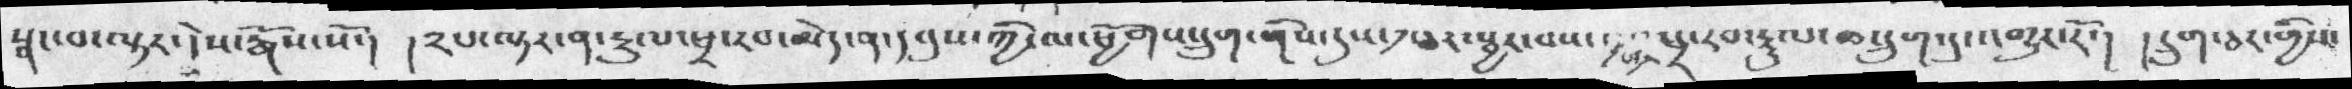སྣང་པ་ལྟར་དེས་རྒོས་སོ་།  །༢པ་ལྟར་ན་རྡུལ་ཕྲ་རབ་མེད་ན་དབུས་ཀྱི་ལ་ཕྱོགས་དྲུག་གིས་དུས་༡་ཅར་སྦྱར་བས་ཕྲ་རབ་རྡུལ་ཆ་དྲུག་དུ་འགྱུར་རོ་།  །དྲུག་ཅར་གྱིས་
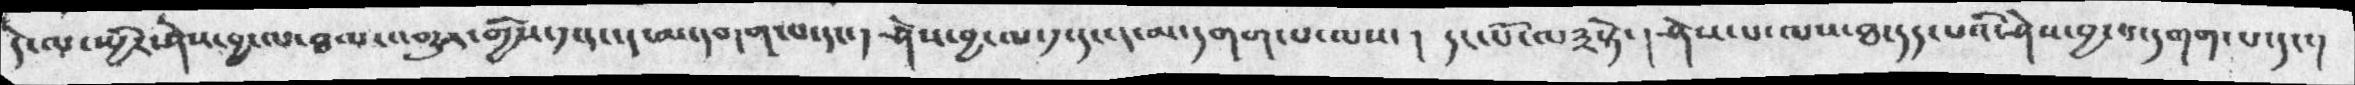དེ་ལ་སྤྱིར་ཤེས་བྱ་ལ་ཐལ་འགྱུར་གྱིས་༡་དང་དུ་མ་དགག་པ་དང་།  ཤེས་བྱ་ལ་༡་དང་དུ་མ་དགག་པ་ལས་།  དང་པོ་ལ༣སྟེ་། ཤེས་པ་ལས་ཐ་དད་པའི་ཤེས་བྱ་བ་དགག་པ་དང་།
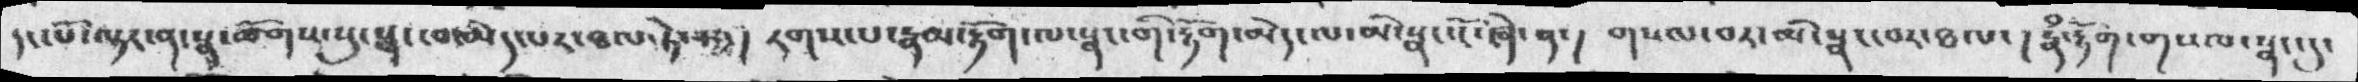དང་པོ་ལྟར་ན་སྣ་ཚོགས་སུ་སྣང་བ་མེད་པར་ཐལ་ཏེ་།     རགས་པ་རྣམ་རྟོག་ལ་སྣང་གི་རྟོག་མེད་ལ་མི་སྣང་ངོ་ཞེ་ན་།   གསལ་བར་མི་སྣང་བར་ཐལ་།  རྣཾ་རྟོག་གསལ་སྣང་དུ་
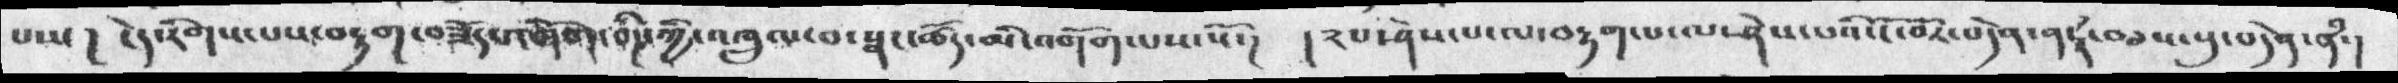པས་།  ངེད་རིགས་པས་བརྟག་བཟོད་པ་འགོག་བདེན་ཀྱི་འཁྲུལ་བ་སྣང་ཚོད་མི་འགོག་པས་སོ་  །༢པ་ཤེས་པ་ལ་བརྟག་པ་ལ་ཤེས་པའི་ངོ་བོར་བདེན་ན་རྣཾ་བཅས་སུ་བདེན་ནཾ་།
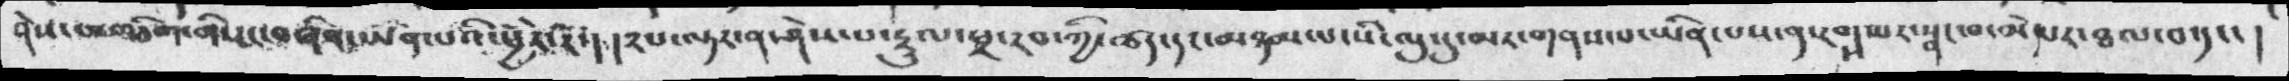ཤེས་པ་གཅིག་གི་ར་བཞིན་ཡིན་པའི་ཕྱིར་རོ་།   །༢པ་ལྟར་ན་ཤེས་པ་རྡུལ་ཕྲ་རབ་ཀྱི་ཚད་དང་མཉམ་པ་སུ་ལུ་དུ་མར་གནས་པ་ཡིན་པས་ན་རག་པར་སྣང་བ་མེད་པར་ཐལ་བ་དང་།
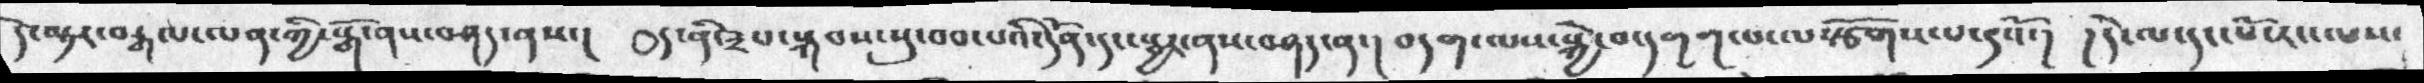དེ་ལྟར་བརྒལ་ལན་གྱི་སྒོ་ནས་བཤད་ནས་།   ༠ད་ནི་༣པ་སྐབས་སུ་བབ་པའི་དོན་དང་སྦྱར་ནས་བཤད་ན་།  བདག་ལས་སྐྱེས་སྐྱེ་བ་དགག་པ་ལསྩོགས་པའ་༩འོ་།  །དེ་ལ་དང་པོ་ར་ལས་
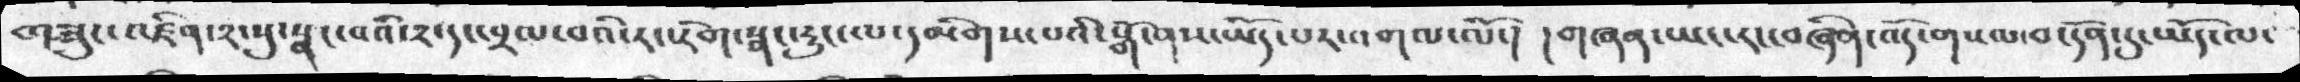གཟུངས་འཛིན་༢་སུ་སྣང་བའི་༢་དང་བྲལ་བའི་རང་རིག་སྣང་རུང་ལ་དམིགས་པའི་སྒོ་ནས་ཡོད་པར་འགལ་ལོ་། །གཞན་ཡང་རང་བཞིན་འོད་གསལ་བ་དོན་དུ་ཡོད་ལ་
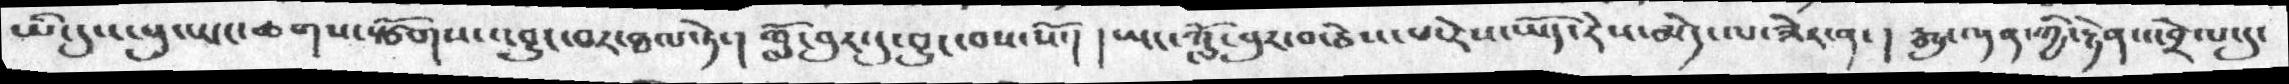ཡི་དུས་སུ་ཡང་ཆགས་སྩོགས་འབྱུང་བར་ཐལ་ཏེ་།  གློ་བུར་དུ་བྱུང་བས་སོ་།  ཡང་ཀློ་བུར་བ་ཅེས་པ་རེས་ཡོད་རེས་མེད་ལ་ཟེར་ན་།  རྒྱུ་ལྡན་ཀྱི་རྟེན་འབྲེལ་དུ་
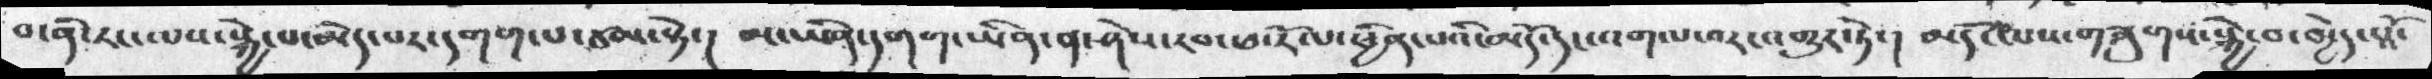བ་ནི་རང་ལས་སྐྱེ་པ་མེད་པར་དགག་པ་ཙམ་སྟེ་།   མ་ཡིན་དགག་ཡིན་ན་ཤེས་རབ་ཕ་རོལ་ཕྱིན་པའི་མདོ་དང་འགལ་བར་འགྱུར་ཏེ་།   མདོ་ལས་གཟུགས་སྐྱེ་བ་མྱེད་པའོ་
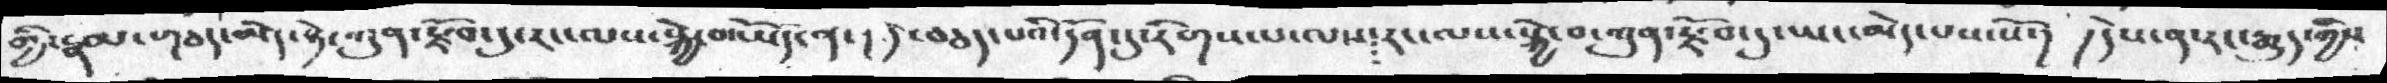གྱི་རྣམ་གཅད་མེད་སྟེ་ཀུན་རྫོབ་དུ་རང་ལས་སྐྱེ་བ་ཡོད་ན་། དེ་བཅད་པའི་དོན་དུ་རིགས་པ་ལས་རང་ལས་སྐྱེ་བ་ཀུན་རྫོབ་དུ་ཡང་མེད་པས་སོ་། །དེས་ན་རང་རྒྱུད་ཀྱིས
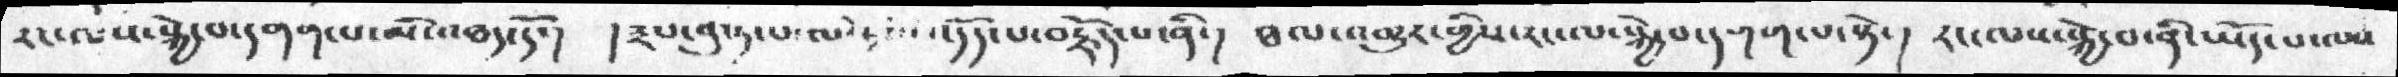རང་ལས་སྐྱེ་བ་དགག་པ་མི་འཐད་དོ་།  ། ༣པ་བུ་ཏ་པ་ལི་ཏའི་འདོད་པ་བརྗོད་པ་ནི་།  ཐལ་འགྱུར་གྱིས་རང་ལ་སྐྱེ་བ་དགག་པ་སྟེ་ ། རང་ལས་སྐྱེ་བ་ནི་ཡོད་པ་ལས་
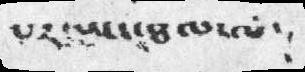པར་ཡང་ཐལ་ལ་
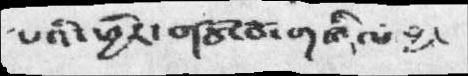པའི་ཕྱིར་གཙོ་བོ་གཞིལ་བྱ་
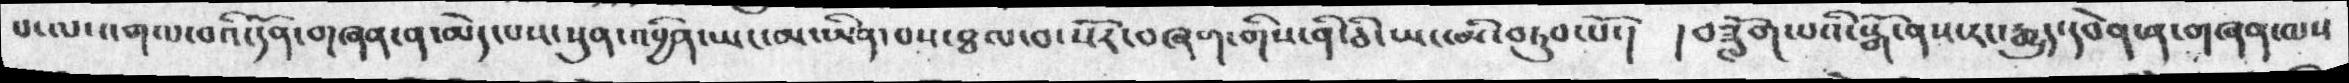པ་ལ་འགལ་བའི་དོན་གཞན་ན་མེད་པས་སུན་འབྱིན་ཡང་མ་ཡིན་པས་ཐལ་བ་སོར་བཞག་གིས་ནི་ཅི་ཡང་མི་བཏུབ་པོ་། །བཟློག་པའི་སྒོ་ནས་རང་རྒྱུད་དབེན་ན་གཞན་ལས་
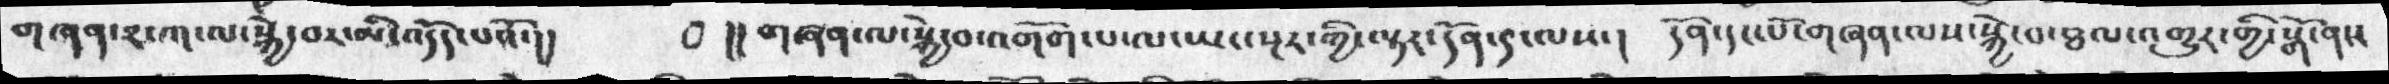གཞན་༢་ཀ་ལ་སྐྱེ་བུ་མི་འདོད་པའོ་།།     ༠།། གཞན་ལ་སྐྱེ་བ་འགོག་པ་ལ་ཡང་སྔར་གྱི་ལྟར་དོན་ད་ལས་།  དོན་དང་པོ་གཞན་ལས་སྐྱེ་བ་ཐལ་འགྱུར་གྱི་སྒོ་ནས་
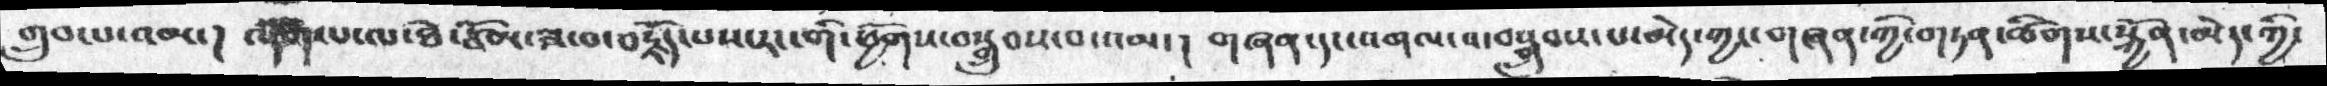གྲུབ་པ་འམ་། ལྡོག་པ་ལ་ཐེ་ཙོམ་ཟ་བ་བརྗོད་པས་རང་གི་ཕྱོགས་བསྒྲུབས་བ་འམ་། གཞན་དང་འགལ་བ་བསྒྲུབས་པ་མེད་ཀྱང་གཞན་གྱི་གཏན་ཚིགས་སྐྱོན་མེད་ཀྱི་
